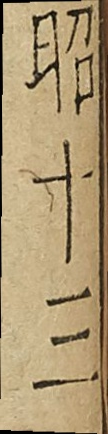昭十三
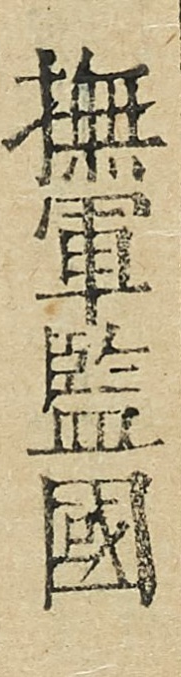撫軍監國
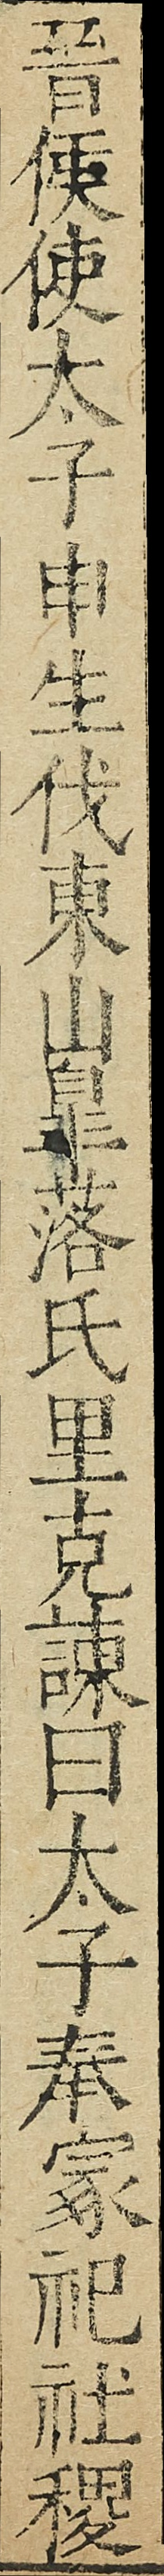晉侯使太子申生伐東山臯落氏里克諫曰太子奉冢祀社稷
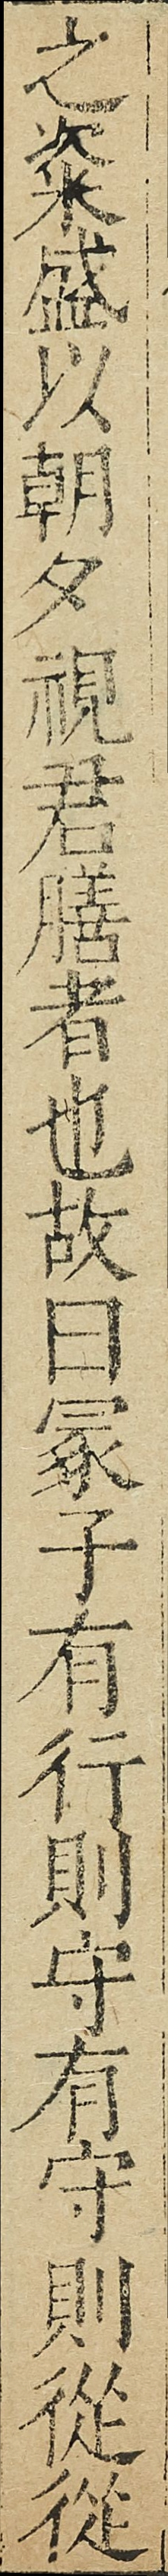之粢盛以朝夕視君膳者也故曰冢子有行則守有守則從從
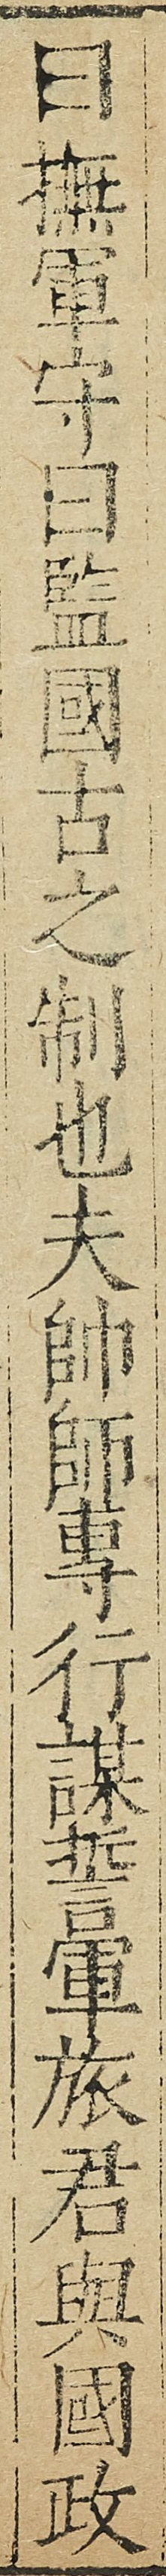曰撫軍守曰監國古之制也夫帥師専行謀誓軍旅君與國政
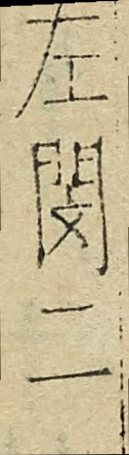左閔二
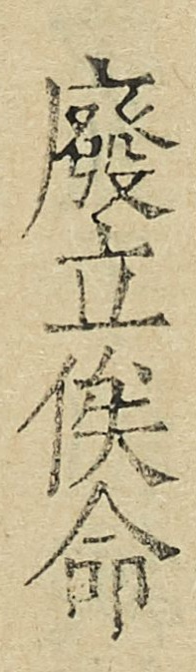廢立俟命
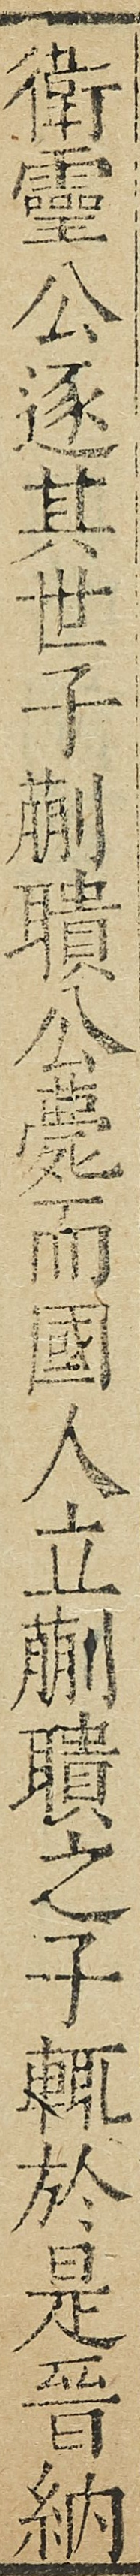衞靈公逐其世子蒯聵公薨而國人立蒯聵之子輒於是晉納
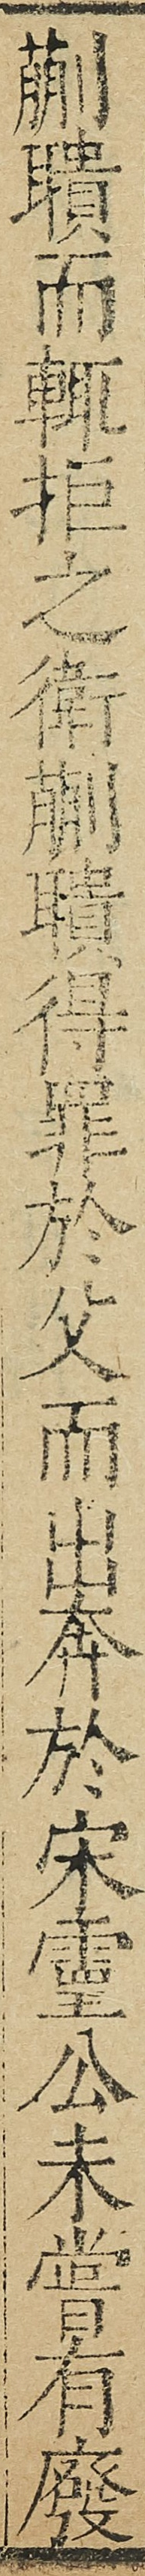蒯聵而輙拒之衞蒯聵得罪於父而出奔於宋𤫊公未嘗有廢
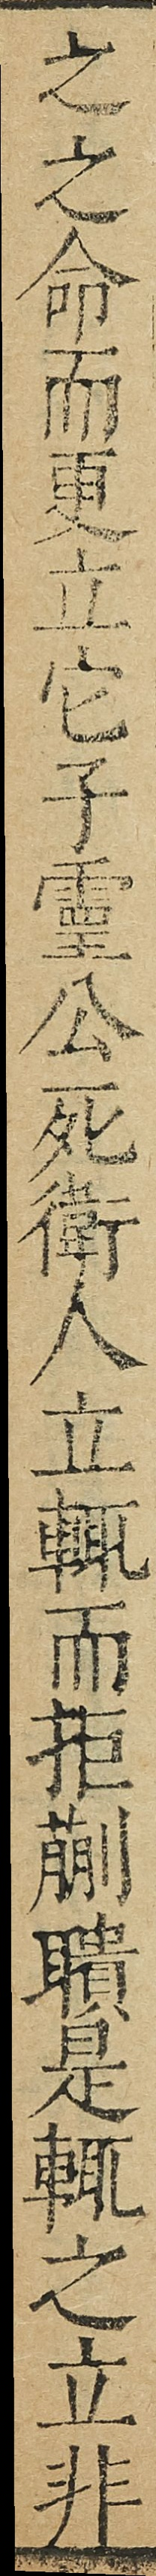之之命而更立它子𤫊公死衞人立輙而拒蒯聵是輙之立非
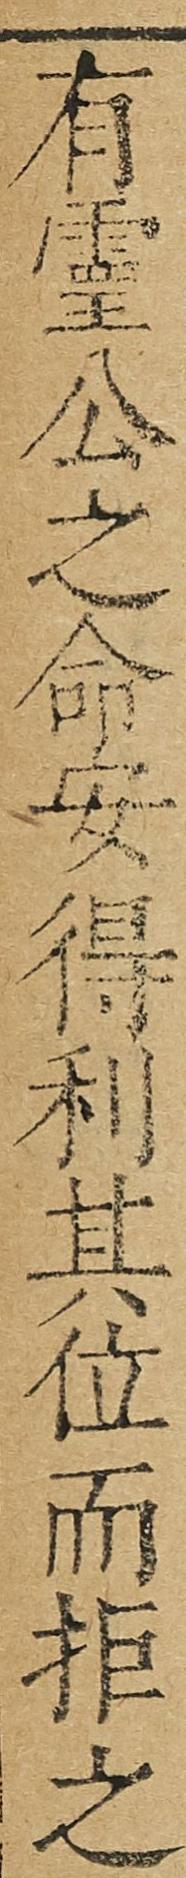有𤫊公之命安得利其位而拒之
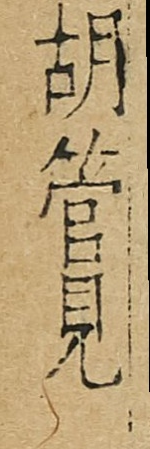胡管見
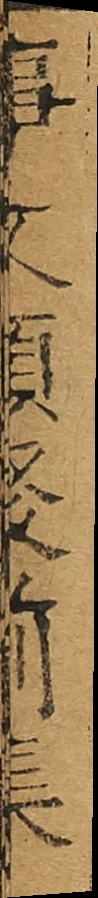事文類聚前集
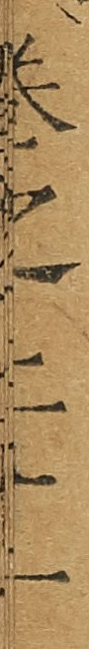卷之二十一
